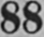88
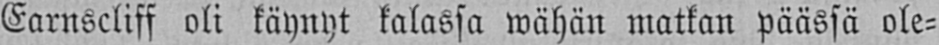Earnscliff oli käynyt kalassa wähän matkan päässä ole-
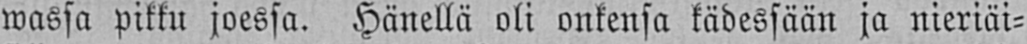wassa pikku joessa. Hänellä oli onkensa kädessään ja nieriäi-
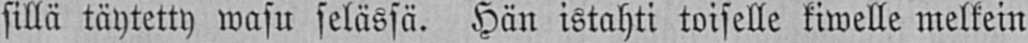sillä täytetty wasu selässä. Hän istahti toiselle kiwelle melkein
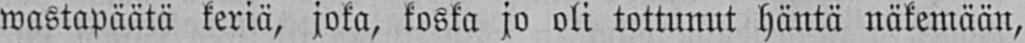wastapäätä keriä, joka, koska jo oli tottunut häntä näkemään,
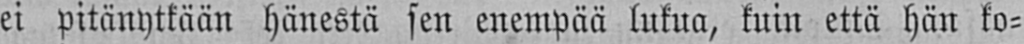ei pitänytkään hänestä sen enempää lukua, kuin että hän ko-
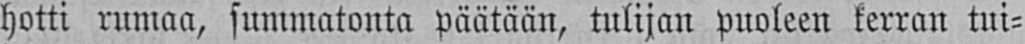hotti rumaa, summatonta päätään, tulijan puoleen kerran tui-
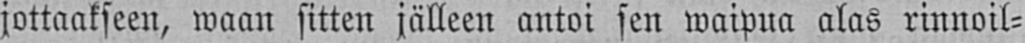jottaakseen, waan sitten jälleen antoi sen waipua alas rinnoil-
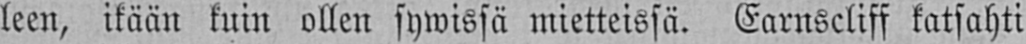leen, ikään kuin ollen sywissä mietteissä. Earnscliff katsahti
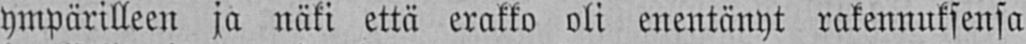ympärilleen ja näki että erakko oli enentänyt rakennuksensa
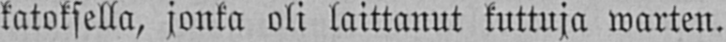katoksella, jonka oli laittanut kuttuja warten.
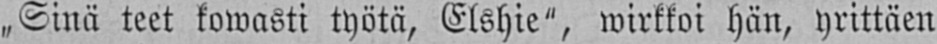„Sinä teet kowasti työtä, Elshie", wirkkoi hän, yrittäen
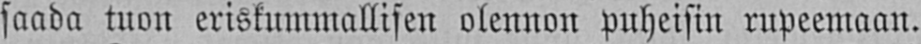saada tuon eriskummallisen olennon puheisin rupeemaan.
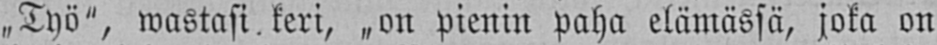„Työ", wastasi keri, „on pienin paha elämässä, joka on
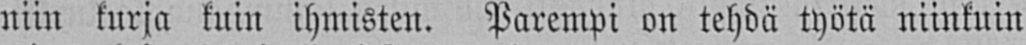niin kurja kuin ihmisten. Parempi on tehdä työtä niinkuin
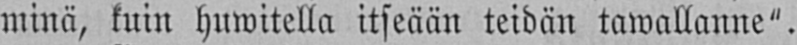minä, kuin huwitella itseään teidän tawallanne".
